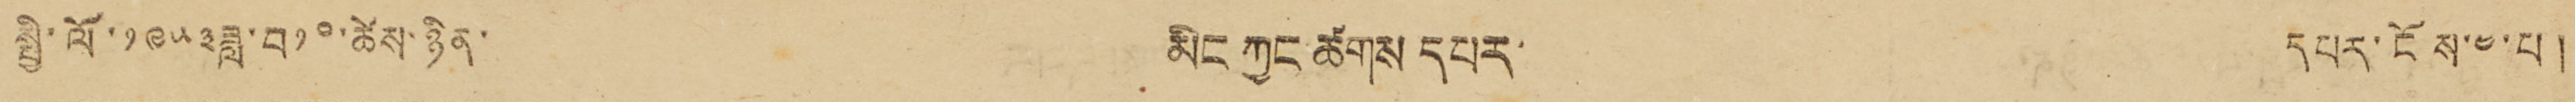སྤྱི་ལོ་༡༩༥༣ཟླ་བ༡༠་ཚེས་ཉིན་ མིང ཀྱང ཚགས དཔར་ དཔར་ངོས་༤་པ །
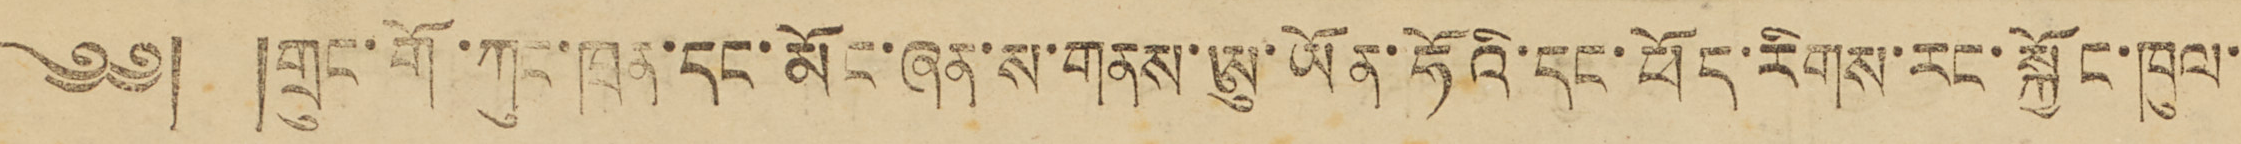༄༅། །གྲུང་གོ་ཀུང་ཁྲན་དང་མོང་ཞན་ས་གནས་ཨུ་ཡོན་ཧོའི་དང་ཕོད་རིགས་རང་སྐྱོང་ཁུལ་
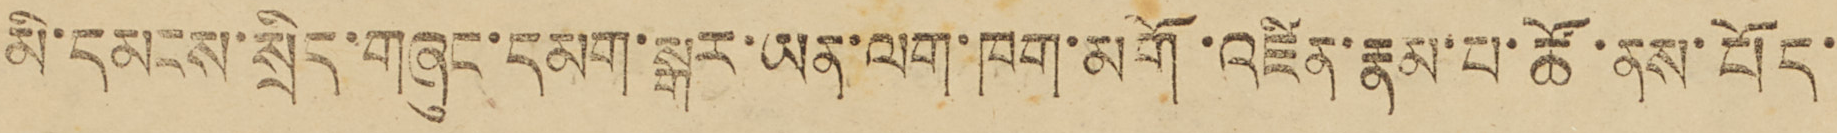མི་དམངས་སྲིད་གཞུང་དམག་སྒར་ཡན་ལག་ཁག་མགོ་འཛིན་རྣམ་པ་ཚོ་ནས་པོད་
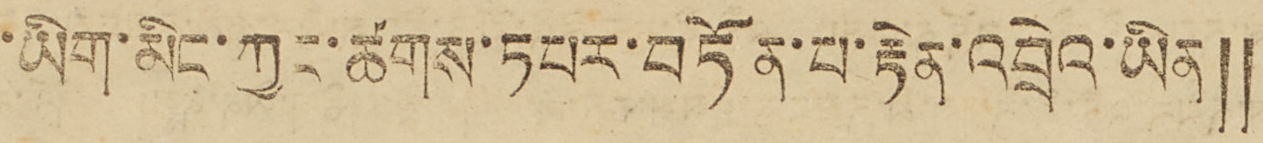་ཡིག་མིང་ཀྱང་ཚགས་ཏཔར་བཏོན་པ་རྟེན་འབྲེའ་ཡིན༎
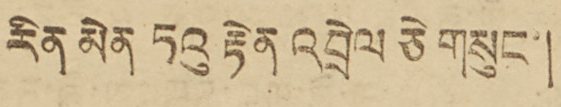རེན མེན ཏའུ རྟེན འབྲེལ ཅེ གསུང་།
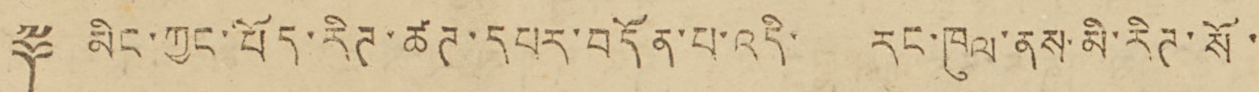༈ མིང་ཀྱང་པོད་རིཊ་ཚཊ་དཔར་བདོན་པ་འིད་ རང་ཁུལ་ནས་མི་རིཊ་སོ་
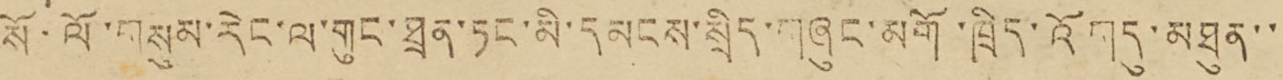སོ་ལོ་གསུམ་རེང་ལ་གུང་ཐྲན་ཏང་མི་དམངས་སྲིད་གཞུང་མགོ་ཁྲིད་འོགདུ་མཐུན་་
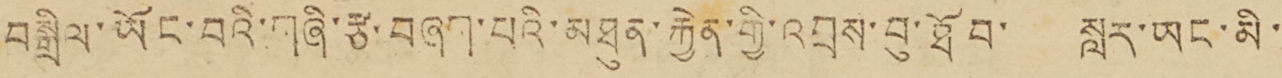བསྒྲིལ་ཡོང་བའི་གཞི་རྩ་བཞག་པའི་མཐུན་རྐྱེན་གྱི་འབྲས་བུ་ཐོབ་ སླར་ཡང་མི་
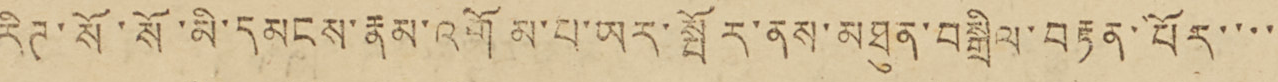རིཊ་སོ་སོ་མི་དམངས་རྣམ་འགོམ་པ་ཡར་སྤོར་ནས་མཐུན་བསྒྲིལ་བརྟན་པོར་་་་
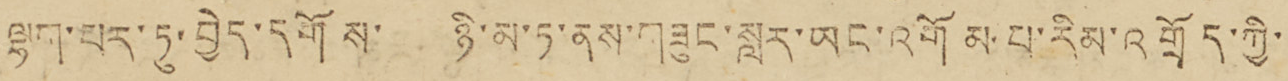ལྷག་པར་ཏུ་བྱེད་དགོས་ ཉི་མ་ཏ་ནས་གཞུང་སླར་ཡང་འགོམ་པ་རིམ་འགྲོད་ཀྱི་
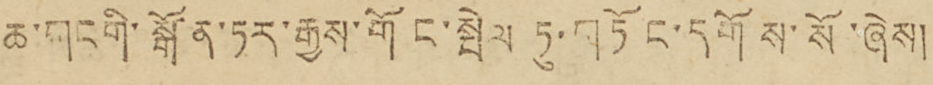ཆ་གངགི་སྒོན་ཏར་རྒྱས་གོང་སྤེལ ཏུ་གཏོང་དགོས་སོ་ཞེས།
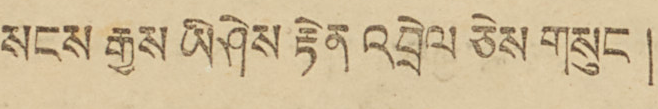སངས རྒྱས ཡི ཤེས རྟེན འབྲེལ ཅེས གསུང །
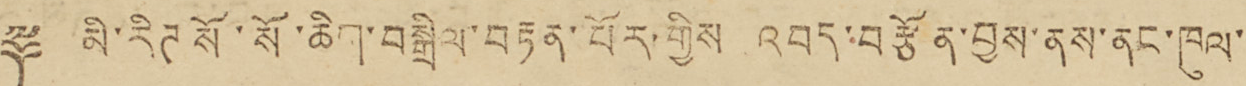༈ མི་རིཊ སོ་སོ་ཆིག་བསྒྲིལ་བརྟན་པོར་གྱིས འབད་བརྩོན་བྱས་ནས་ནང་ཁུལ་
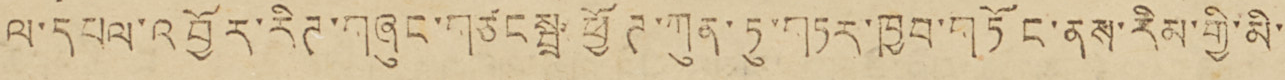ལ་དཔལ་འབྱོར་རིཊ་གཞུང་གཙངསྤྲ་ཕྱོཊ་ཀུན་ཏུ་གཏར་ཁྱབ་གཏོང་ནས་རིམ་གྱི་མི་
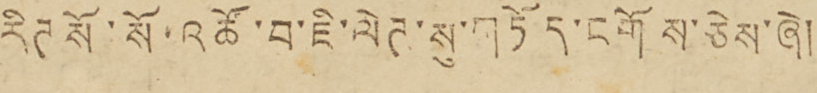རིཊ སོ་སོ་འཚོ་བ་ཇི་ལེཊ་སུ་གཏོད་ངགོས་ཅེས་ཞེ།
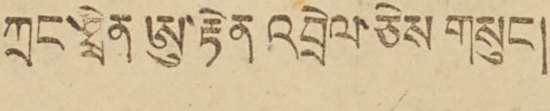ཀྲང་ཐྲིན ཨུ་རྟེན འབྲེལ་ཅེས གསུང།
